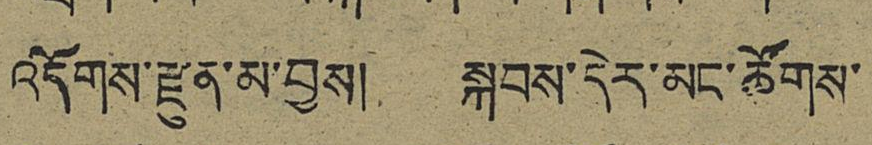འདོགས་རྫུན་མ་བྱས། སྐབས་དེར་མང་ཚོགས་
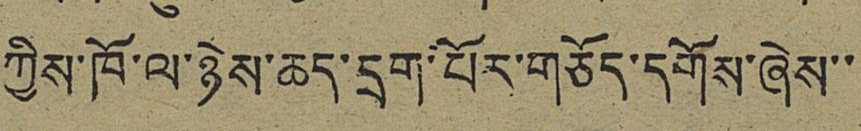ཀྱིས་ཁོ་ལ་ཉེས་ཆད་དྲག་པོར་གཅོད་དགོས་ཞེས་་
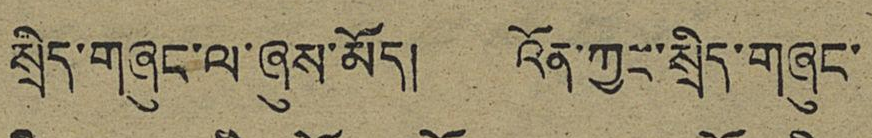སྲིད་གཞུང་ལ་ཞུས་མོད། འོན་ཀྱང་སྲིད་གཞུང་
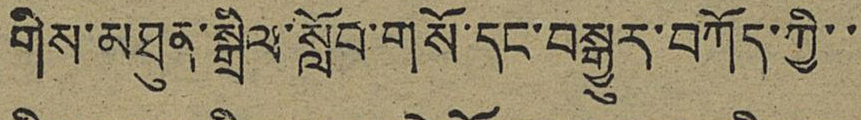གིས་མཐུན་སྒྲིལ་སློབ་གསོ་དང་བསྒྱུར་བཀོད་ཀྱི་་
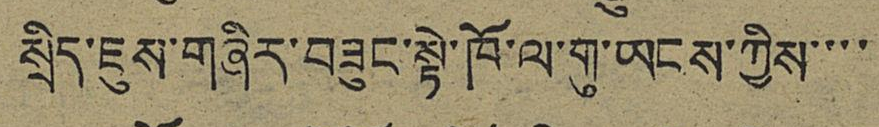སྲིད་ཇུས་གཞིར་བཟུང་སྟེ་ཁོ་ལ་གུ་ཡངས་ཀྱིས་་་་
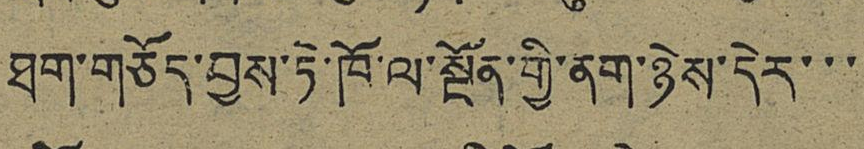ཐག་གཅོད་བྱས་ཏེ་ཁོ་ལ་སྔོན་གྱི་ནག་ཉེས་དེར་་
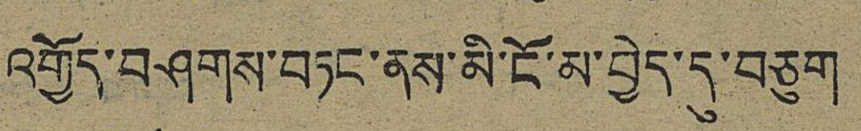འགྱོད་བཤགས་བཏང་ནས་མི་ངོ་མ་བྱེད་དུ་བཅུག
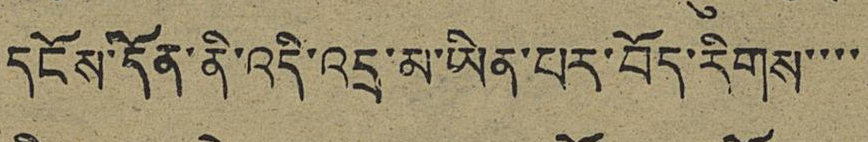དངོས་དོན་ནི་འདི་འདྲ་མ་ཡིན་པར་བོད་རིགས་་་
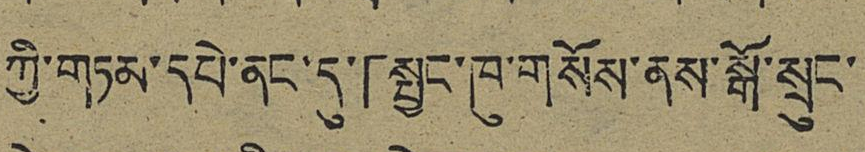ཀྱི་གཏམ་དཔེ་ནང་དུ་「སྤྱང་ཁུ་གསོས་ནས་སྒོ་སྲུང་
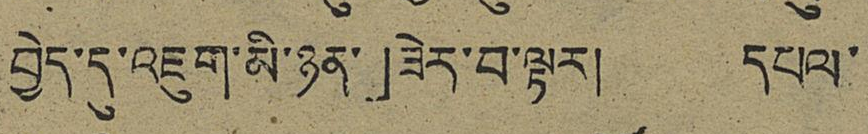བྱེད་དུ་འཇུག་མི་ཉན་」ཟེར་བ་ལྟར། དཔལ་
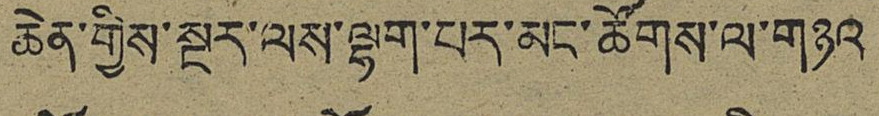ཆེན་གྱིས་སྔར་ལས་ལྷག་པར་མང་ཚོགས་ལ་གཉའ
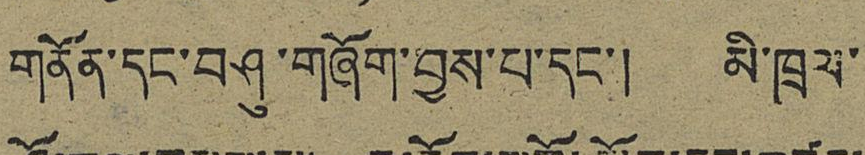གནོན་དང་བཤུ་གཞོག་བྱས་པ་དང་། མི་ཁྲལ་
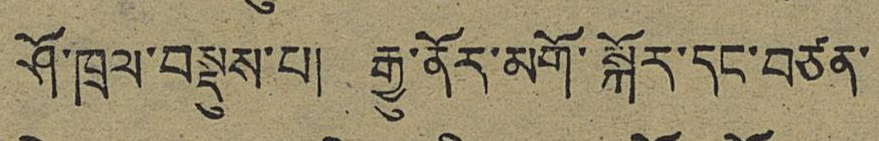ཤོ་ཁྲལ་བསྡུས་པ། རྒྱུ་ནོར་མགོ་སྐོར་དང་བཙན་
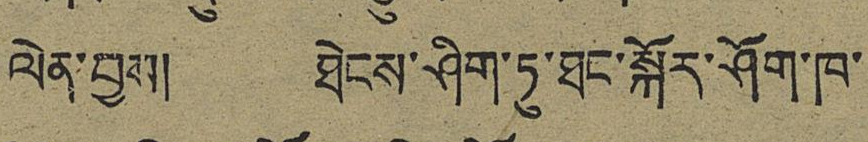ལེན་བྱས། ཐེངས་ཤིག་ཏུ་ཐང་སྐོར་ཤོག་ཁ་
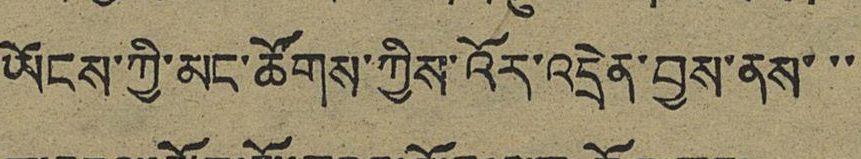ཡོངས་ཀྱི་མང་ཚོགས་ཀྱིས་འོར་འདྲེན་བྱས་ནས་་་
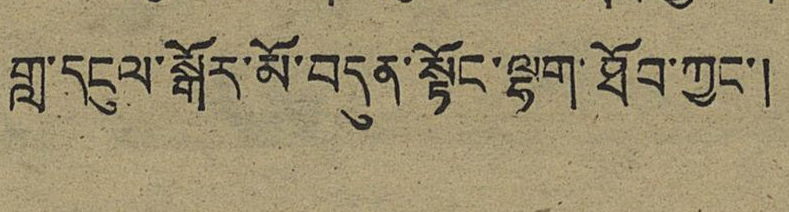གླ་དངུལ་སྒོར་མོ་བདུན་སྟོང་ལྷག་ཐོབ་ཀྱང་།
